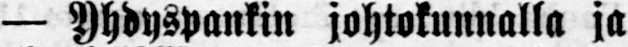— Yhdyspankin johtokunnalla ja
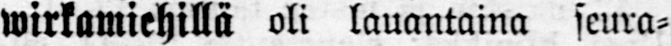wirkamiehillä oli lauantaina seura-
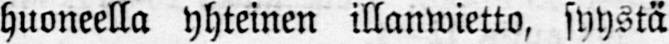huoneella yhteinen illanwietto, syystä
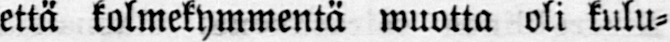että kolmekymmentä wuotta oli kulu-
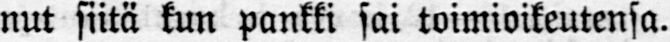nut siitä kun pankki sai toimioikeutensa.
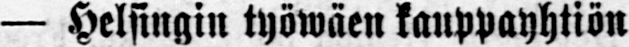— Helsingin työwäen kauppayhtiön
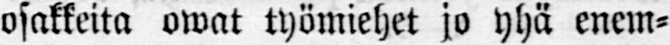osakkeita owat työmiehet jo yhä enem-
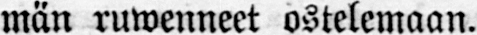män ruwenneet ostelemaan.
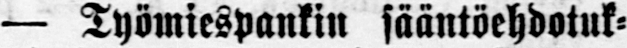— Työmiespankin sääntöehdotuk-
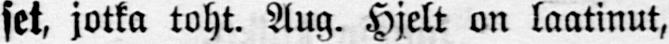set, jotka toht. Aug. Hjelt on laatinut,
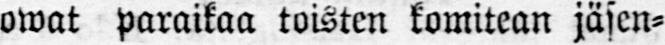owat paraikaa toisten komitean jäsen-
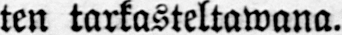ten tarkasteltawana.
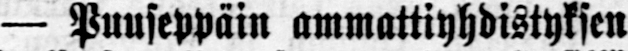— Puuseppäin ammattiyhdistyksen
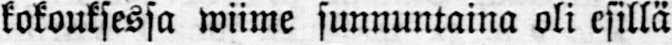kokouksessa wiime sunnuntaina oli esillä
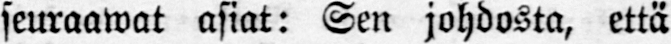seuraawat asiat: Sen johdosta, että
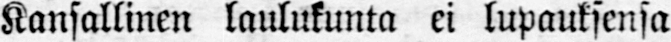Kansallinen laulukunta ei lupauksensa
